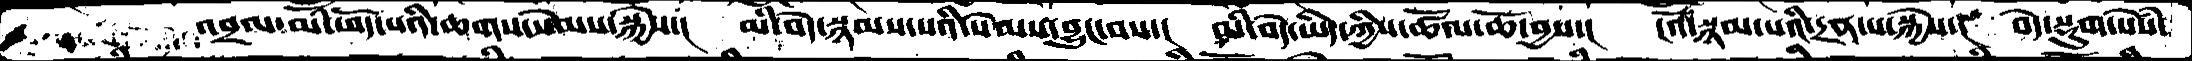འབྲལ་མི་ཕོད་པའི་ཆགས་སེམས་སྐྱེས་། མི་བདེ་སྙམས་པའི་སེམས་བྱུང་བས་། མི་བདེ་ཡིད་ཀྱིས་ཚོལ་ཆོ་བྱས་། ངའོ་སྙམ་པའི་དྲན་པ་སྐྱེས་། བདེ་སྡུག་སེཾས་
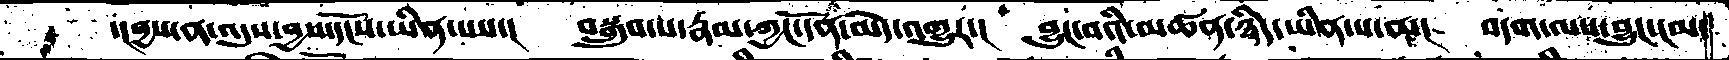་།བྱས་ན་འདུས་བྱས་དངོས་ཡིན་པས་། བསྒྲུབ་པ་རྣམ་ཀྱང་དོན་མེད་འགྱུར་། བྱུང་བའི་མཚན་ཉིད་ཡིན་པ་ན་། བདག་ལས་བྱུང་ངམ་
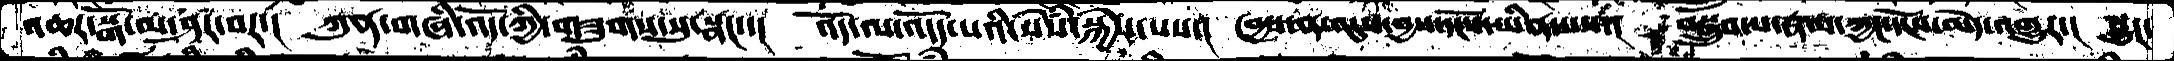འཆར་སྒོ་མ་ཤར་བར་། ཀུན་གཞི་འོད་ཀྱི་གཟུགས་སུ་སྣང་་། འོད་ལ་འདོད་པའི་སེཾས་སྐྱེས་པས་། བྱས་ན་འདུས་བྱས་དངོས་ཡིན་པས་། བསྒྲུབ་པ་རྣམ་ཀྱང་དངོས་མེད་འགྱུར་། བྱུང་
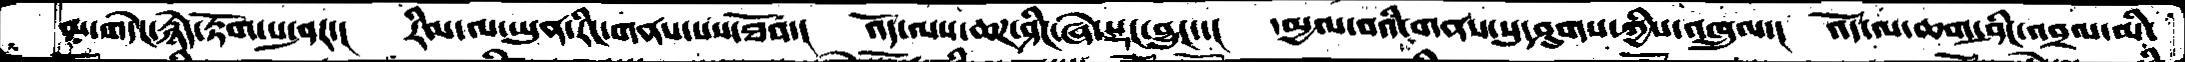མ་གདེང་རྙེད་རྟོག་པ་ཤར་། རིམ་ལ་ཡུན་རིང་གནས་པས་ཐོབ་། འོད་ལས་ཆཌ་ཤིང་ཞེ་སྡང་བྱུང་་། དམྱལ་བའི་གནས་སུ་ཤུགས་ཀྱིས་འཁྲུལ་། འོད་ལ་ཆག་ཤིང་འབྲལ་མི་
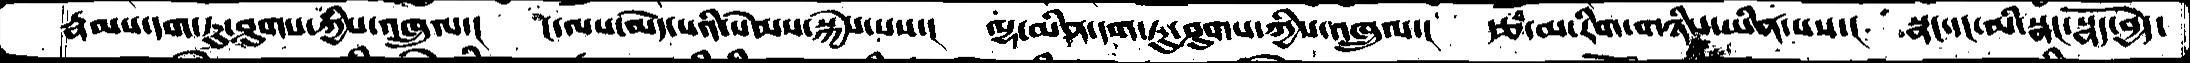རྣམས་དག་ཏུ་ཤུགས་ཀྱིས་འཁྲུལ་། ང་ལས་མེད་པའི་སེམས་སྐྱེས་པས་། ལྷ་མིན་དག་ཏུ་ཤུགས་ཀྱིས་འཁྲུལ་། རྩ་བ་མ་རིག་གཉིས་ཡིན་པས་། སྣང་དང་མི་སྣང་སྣོད་བྱེད་
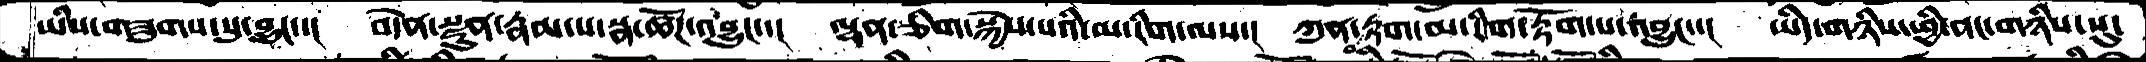ཡིས་གཟུགས་སུ་བྱུང་་། བདེན་སྫུན་རྣམ་པ་སྣ་ཚོཌ་འབྱུང་་། ལྷན་ཅིག་སྐྱེས་པའི་མ་རིག་ལས་། ཀུན་བརྟག་མ་རིག་རྟོག་པ་འབྱུང་་། ཡིད་གཉིས་ཕྱི་ནང་གཉིས་སུ་
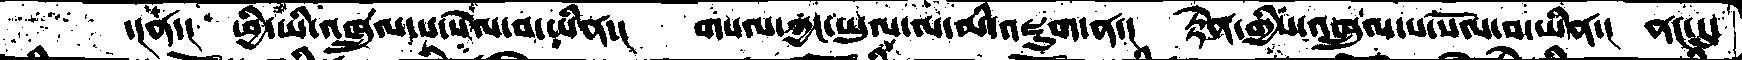་།ན་། ཕྱི་ཡི་འཁྲུལ་པ་སེལ་བ་ཡིན་། གསལ་ཀྱང་ཡུལ་ལ་མི་འཇུག་ན་། རྟེན་གྱིས་འཁྲུལ་པ་སོལ་བ་ཡིན་། ནང་དུ་
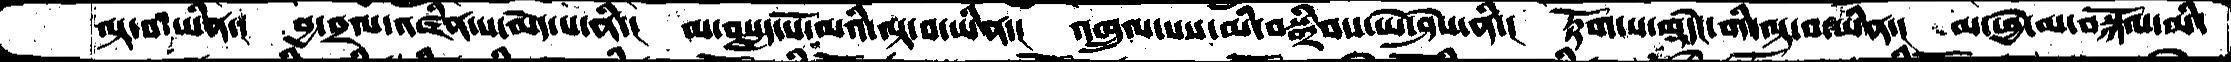ལྟ་བ་ཡིན་། བྱ་བྲལ་འཛིན་པ་མེད་པ་ནི་། མ་བསླད་སོ་མའི་ལྟ་བ་ཡིན་། འཁྲུལ་པས་མི་བསྒྲིབས་ཡེ་ཤེས་ནི་། རྟོག་པ་གདེང་གི་ལྟ་བ་ཡིན་། མ་ཕྱེ་མ་བསྐོལ་མི་
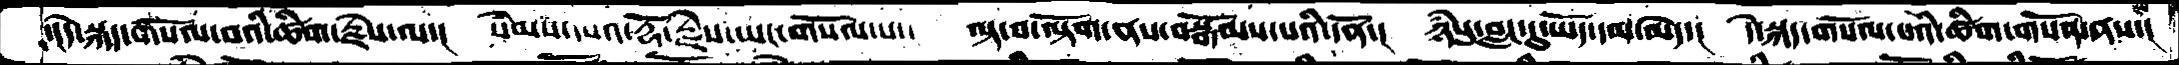་།དེ་སྐད་གསོལ་བའི་ཚིག་རྗེས་ལ་། སེམས་དཔའ་རྡོ་རྗེས་ཡང་གསོལ་པ་། ལྟ་བ་ལྟོག་ནས་བསྒོམས་པའི་དོན་། ཉཾསུ་བླང་དུ་ཡོད་དམ་མེད་། དེ་སྐད་གསོལ་པའི་ཚིག་གསོན་ནས་།
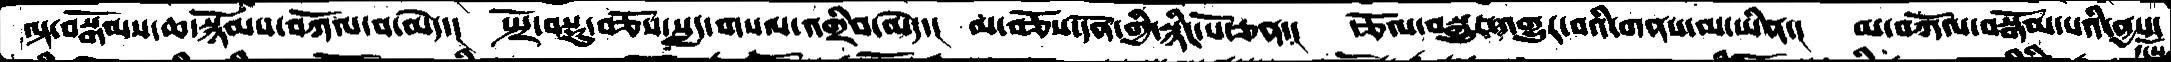ལྟ་བསྒོམས་ཆ་སྙོམས་བཀོལ་བ་མེད་། སྤྲོ་བསྡུ་བཅོས་སླད་གསལ་འགྲིབ་མེད་། མ་བཅོས་དོན་གྱི་སྙིང་པོ་ཅན་། རྩོལ་བསྒྱུར་འགྱུར་བའི་གནས་མ་ཡིན་། མ་བཀོལ་བསྒོམ་པའི་ནྱས་
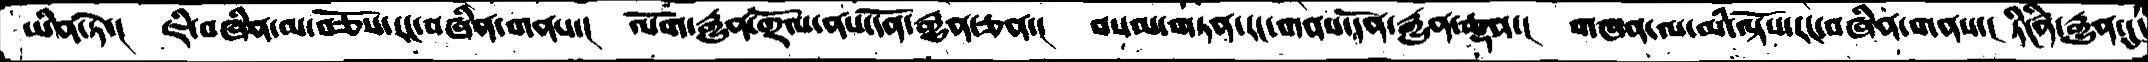ཡིན་ཏེ་། ཇི་བཞིན་མ་བཅོས་རང་བཞིན་གནས་། ལོག་རྒྱུན་གྲོལ་ནས་དོན་རྒྱུན་ཅན་། བསམ་གཏན་རང་གནས་དོན་རྒྱུན་ལྡན་། གཞན་ལ་མི་ལྟོས་རང་བཞིན་གནས་། ཏིངཛིན་རྒྱུན་དུ་
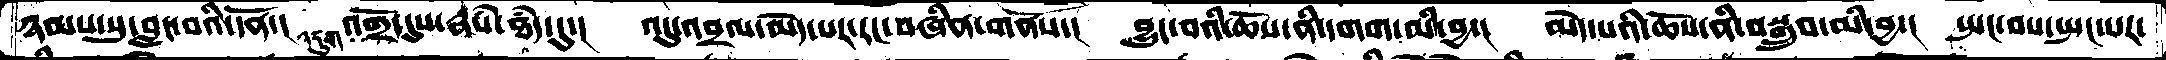ཉམས་སུ་བླང་བའི་དོན་། འགྲོ་འདུག་དུས་རྣཾས་ཐཾད་དུ་། འདུ་འབྲལ་མེད་པར་རང་བཞིན་གནས་། བྱུང་བའི་ཆོས་ནི་དགག་མི་བྱ་། མེད་པའི་ཆོས་ནི་བསྒྲུབ་མི་བྱ་། སྤང་བས་སྤང་པར་
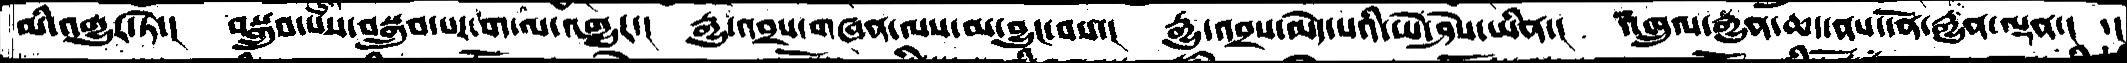མི་འགྱུར་ཏེ་། བསྒྲུབ་པས་བསྒྲུབ་པར་ག་ལ་འགྱུར་། རྒྱུ་འབྲས་གཞན་ལས་མ་བྱུང་བས་། རྒྱུ་འབྲས་མེད་པའི་ཡེ་ཤེས་ཡིན་། འཁྲུལ་རྒྱུན་ཆད་ནས་དོན་རྒྱུན་ལྡན་།  ་།
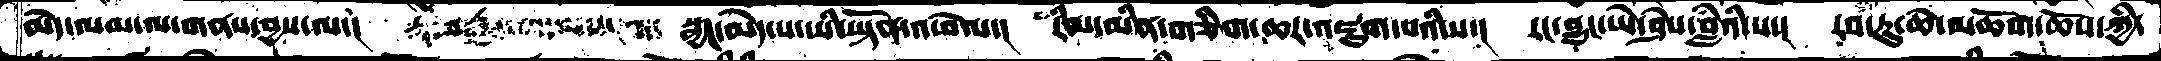མེད་ལམ་ལ་གནས་བྱས་ལ་།  སྦྱང་མེད་པ་ཡི་ཡྟོན་འཕེལ་། རིམ་མིན་གཅིག་ཆར་འཇུག་པའི་ས་། རང་བྱུང་ཡེ་ཤེས་བླཾའི་ས་། རབ་ཏུ་ཆེ་མཆོག་ཆོས་ཀྱི་
